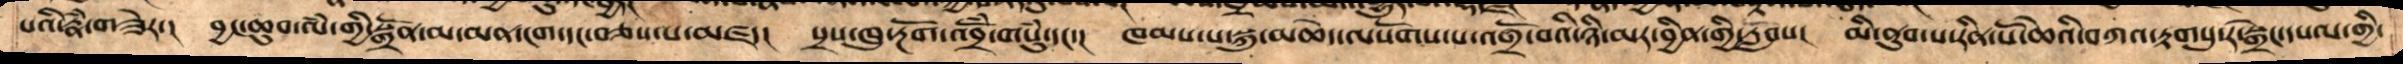པའི་རྣྃ་གཟེར།  བྱང་ཆུབ་ལྃ་གྱི་སྒྲོན་མ་མན་ངག་དང་བཅས་པ་མཛད། སྲས་ཁུ་རྔོག་འབྲོྃ་གསུྃ་དང་།  ཁམས་པ་སྐུ་མཆེད་ལསོགས་པ་འགྲོ་བའི་ཉི་མར་བྱིན་གྱི་རློབས། མི་ནུབ་པ་རིན་པོ་ཆེའི་བཀའ་རྟགསུ་ར་སྒྲེང་དཔལ་གྱི་
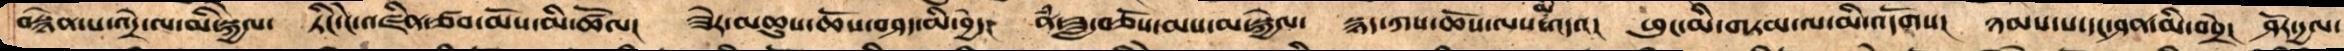བསྙེན་པ་འདྲེ་ལ་མི་སྐྱེལ།   ཏིང་ངེ་འཛིན་ཙབ་མོས་མི་ཚོལ།  ཟེར་མཆུས་ཆོས་བཤད་མི་བྱེད།  ནཾ་ཟླ་བཅོས་མས་མ་སྐྱེལ།  སྙད་ཀས་ཆོས་ལས་མི་འདའ།   ཕུང་མི་གཏམ་ལ་མི་འདོགས།  ཉམས་པ་དང་ཤན་མི་བསྲེ། ཤོར་དྱལ་
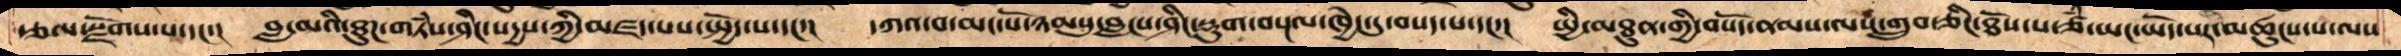རྩལ་སྫོགས་པ་དང་།   བླ་མའི་ཐུཌ་གཏཾས་ཤིང་སདྱས་ཀྱི་མཛད་པས་སྤྱོད་པ་དང་།   དཀའ་བ་མང་པོ་ཉམསུ་བླངས་ཤིང་སྡུག་བསྔལ་ཁྱེད་དུ་བསད་པ་དང་།   སྤྱི་མཐུན་གྱི་བསོད་ནམས་ལས་གྲུབ་ཅིང་ཐོས་པ་ཙཾ་ཡང་དོན་ཡོད་པར་མཚུངས་པ་ལས
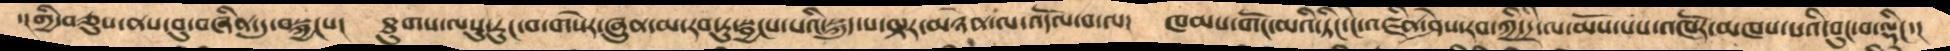་།གྱི་བཅུས་ནས་བུ་བཞིན་དུ་བསྐྱངས།   ཐུགས་ལསུ་རུང་བ་གསེར་ཞུན་མ་རབ་ཏུ་སྦྱངས་པའི་སྐུད་པ་ལྟར་མཉེན་ལ་འོདལ་བ་ལ།   ཁམས་གོང་མའི་ཏིང་ངེ་འཛིན་ཤེས་རབ་ཀྱི་དྲི་ལ་མོས་པས་འཁོར་མཁས་པའི་བུང་བ་ལྡིང་།
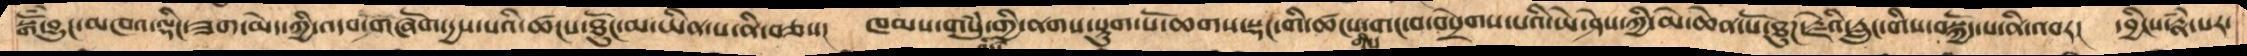བསྒོཾ་བྱུང་མཁའ་ལྡིང་ཟག་མེད་ཀྱི་འདབ་གཞོག་དྱས་པའི་ཚངས་ཐུངོ་མ་ཡིན་པ་ནི་བཅས།   ཁམས་གསུཾ་གྱི་ནགས་སྟུག་པོ་ཆགས་སྡང་གི་ཚངས་གིས་གང་བ་བསྲེགས་པའི་ཡེ་ཤེས་ཀྱི་མེ་ཆེན་པོ་ཐུཌ་རྗེའི་རླུང་གིས་བསྐྱོད་པ་ནི་འབར།  དབྱིངས་རྣཾ་པར་
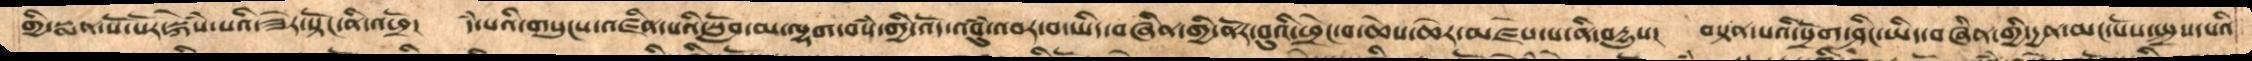གྱི་སྨན་སོ་སོར་སྐེཾས་པའི་ཟེར་སྟོང་ནི་འཕྲོ།    དཾ་པའི་གསུངས་འཛིན་པའི་སློབ་མ་ལྷག་བསཾ་གྱི་འོད་འབུཾ་འབར་བ་ཡིད་བཞིན་གྱི་ནོར་བུའི་ཕྲེང་བ་ཆེས་ཆེར་མཛེས་པ་ནི་བདྱུས།   བསྟན་པའི་སྲོག་ཤིང་ཡིད་བཞིན་གྱི་དྱན་མང་པོས་སྤྲས་པའི
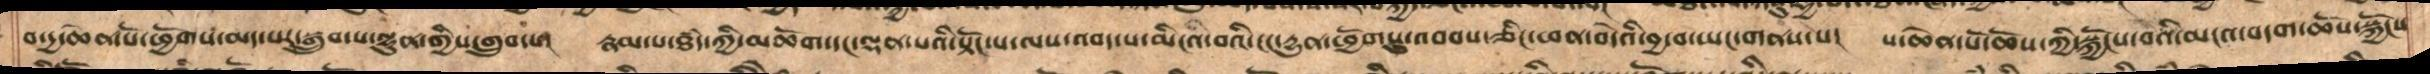བ་དྱ་ཆེན་པོ་ཕྱོགས་མད་པར་སྒྲུབ་པ་ལྷུན་གྱིས་གྲུབ་པ།   རྣམ་པ་ཐཾད་ཀྱི་མཆོག་དང་ལྡན་པའི་སྟོང་པ་ལས་འབད་པ་མིངའ་བའི་ངང་དྱུན་ཕྱོགསུ་འབབས་ཅིང་ཕན་བདེའི་བྱ་བ་ཡང་གནས་པ།  ས་ཆེན་པོ་ཆོས་ཀྱི་སྐྱོངས་བའི་མངའ་བདག་ཆོས་སྐྱོངས
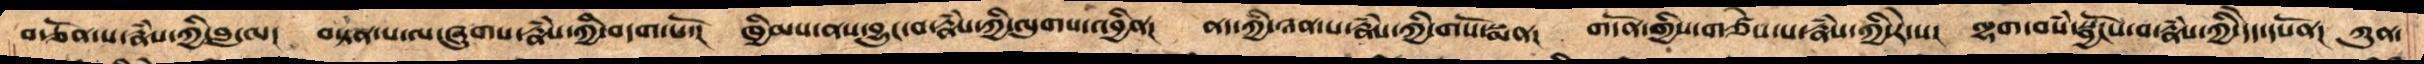བརྩོན་པ་རྣཾས་ཀྱི་བླ་མ། བསྟན་པ་ལ་ཞུགས་རྣཾས་ཀྱི་བདག་པོ་།   ཁྱིམས་ནས་བྱུང་བ་རྣཾས་ཀྱི་ལུགས་འབྱིན།    ནད་ཀྱི་ཉན་པ་རྣཾས་ཀྱི་གསོ་སྨན།   གདོན་གྱིས་གཙེས་པ་རྣཾས་ཀྱི་རེ་ས།    ལྷག་བསཾ་སྦྱོངས་བ་རྣཾས་ཀྱི་དེད་དཔོན།   ཀུན་
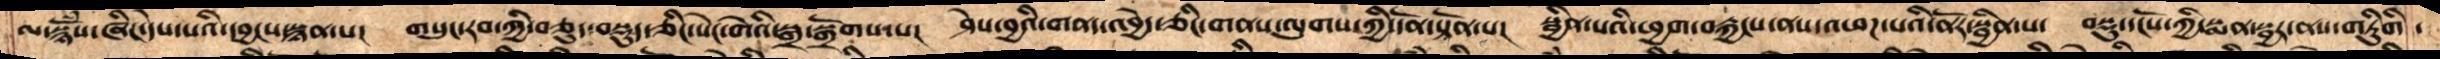ལ་སྙོཾས་ཞིང་དེས་པའི་དབྱངས་སྙན་པ།   གསུང་རབ་ཀྱི་བཅུད་བསྡུད་ཅིང་སེང་གེའི་སྒྲ་སྒྲོགས་པ།    ཤེས་བྱའི་གནད་འབྱེད་ཅིང་གནས་ལུགས་ཀྱི་དོན་སྟོན་པ།    སྦྱིན་པའི་ཕྱག་བརྐྱངས་ནས་འཕཌ་པའི་ནོར་སྦྱིན་པ།   བསྡུ་དངོས་ཀྱི་སྨན་སྦྱར་ནས་གཏིུགི་
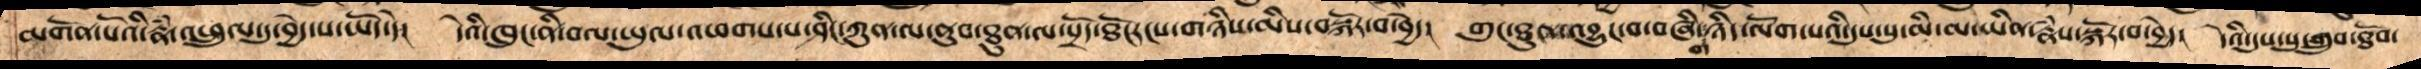མགོན་པོའི་རྣྃ་འཕྲུལ་དུ་བྱེད་པ་ཡོད་དེ། དེའི་ཁུང་ནི་བལ་ཡུལ་དུ་འཕགས་པ་ཤིང་ཀུན་ལ་ནུབ་ཐུན་ལ་སྲོད་ཐོ་རངས་གཉིས་མིས་བསྐོར་བ་བྱེད། གུང་ཐུན་འབྱུང་བ་བཞི་གཉིད་ལོག་པའི་དུས་སུ་མི་མ་ཡིན་རྣྃས་སྐོར་བ་བྱེད། དེའི་དུས་སུ་གྲུབ་ཐོབ་
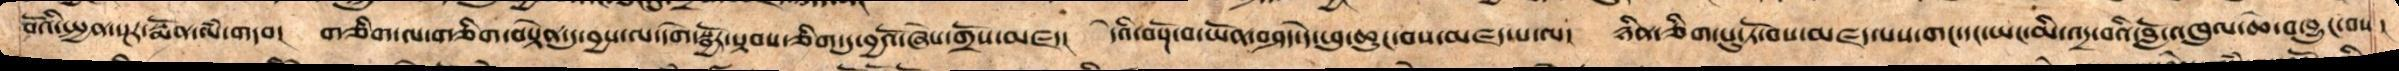བོའི་སྤྱན་སྔར་སྨོན་ལཾ་གདབ།  གཅིག་ལ་གཅིག་བསྟེན་དུ་བྱས་ལ་དགེ་སྦྱོར་སྟབས་ཅིག་དུ་བྱའོ་ཞེས་གྲོས་མཛད།   དེའི་་བསྔོ་བ་ཡོན་བཤད་དེ་ཕུ་ཆུང་བས་མཛད་པ་ལ།  ཉིན་ཅིག་པུ་ཏོ་བས་མཛད་པས་གང་དང་ཡང་མི་འདྲ་བའི་བློ་འཁུལ་ཆེ་བ་བྱུང་བས།
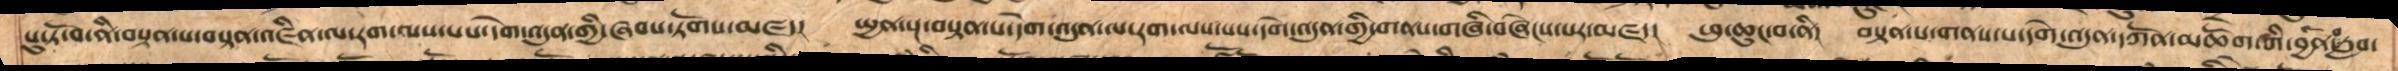པུ་ཏོ་བ་ནི་བསྟན་པ་བསྟན་འཛིན་ལ་རག་ལས་པས་དགེ་འདུན་གྱི་ཞབས་ཏོགས་མཛད།  སྤྱན་སྔ་བསྟན་པ་དགེ་འདུན་ལ་རག་ལས་པས་དགེ་འདུན་གྱི་གནས་གཞི་བཞེངས་པར་མཛད།  ཕུ་ཆུང་བ་ནི།  བསྟན་པ་གནས་པ་དགེ་འདུན་དཀོན་མཆོག་གི་བྱིན་བརླབ་
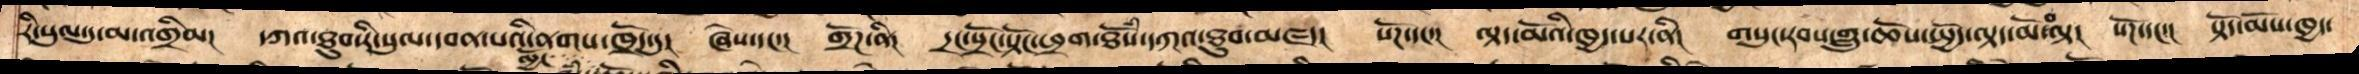རི་སུལ་དུ་མ་འགྲིམ། དཀའ་ཐུབ་རི་སུལ་བན་པའི་ནགས་ཁྲོད་དུ།  ཞེས་དང་།  གྲོཌ་ནི།  དྲང་སྲོང་སྟོང་ཕྲག་ཐོཾས་དཀའ་ཐུབ་མཛད།  སོཌ་དང་།  ལྟད་མོའི་ཁྱད་པར་ནི།  གསུང་རབས་གླུ་ཆོས་སྤྱོད་ལྟད་མོ་བལྟ།  སོཌ་དང་། སྟོད་མོས་ཁྱད་
